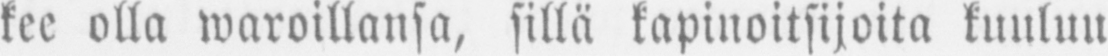kee olla waroillansa, sillä kapinoitsijoita kuuluu
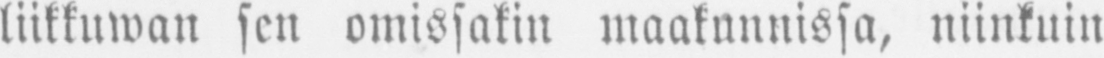liikkuwan sen omissakin maakunnissa, niinkuin
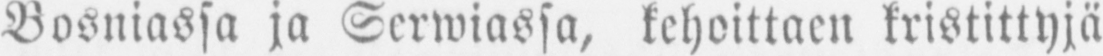Bosniassa ja Serwiassa, kehoittaen kristittyjä
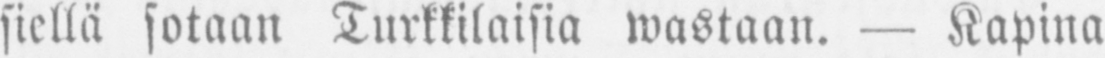siellä sotaan Turkkilaisia wastaan. — Kapina
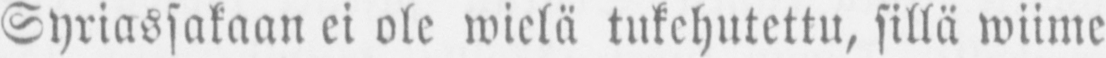Syriassakaan ei ole wielä tukehutettu, sillä wiime
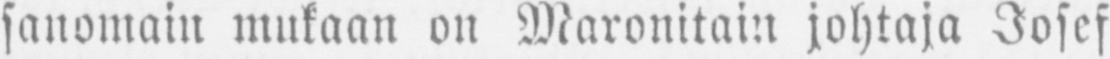sanomain mukaan on Maronitain johtaja Josef
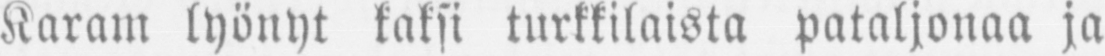Karam lyönyt kaksi turkkilaista pataljonaa ja
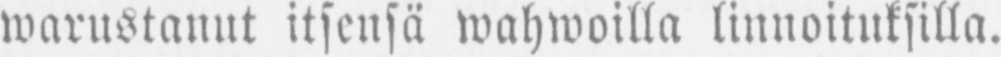warustanut itsensä wahwoilla linnoituksilla.
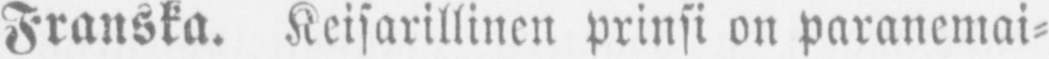Franska. Keisarillinen prinsi on paranemai-
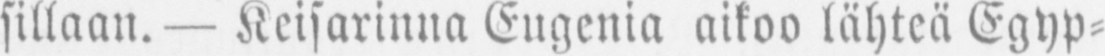sillaan. — Keisarinna Eugenia aikoo lähteä Egyp-
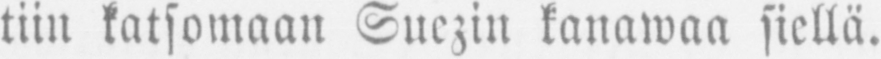tiin katsomaan Suezin kanawaa siellä.
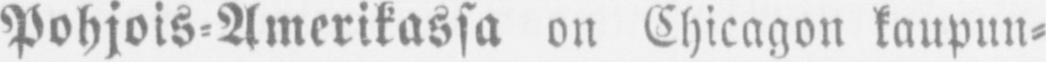Pohjois-Amerikassa on Chicagon kaupun-
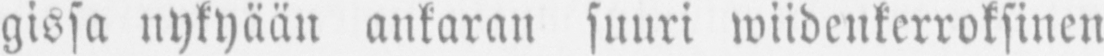gissa nykyään ankaran suuri wiidenkerroksinen
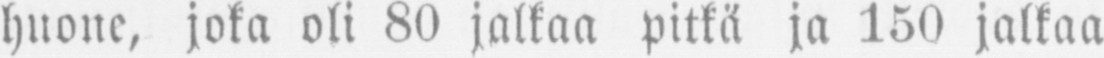huone, joka oli 80 jalkaa pitkä ja 150 jalkaa
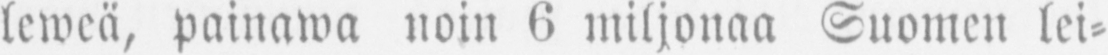leweä, painawa noin 6 miljonaa Suomen lei-
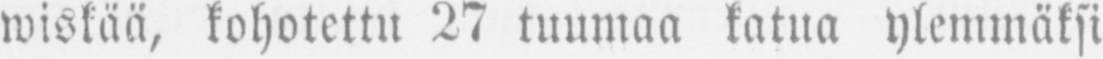wiskää, kohotettu 27 tuumaa katua ylemmäksi
